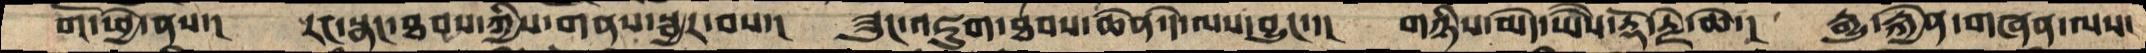གོ་ཕྱེ་ནས་།  རང་སྣང་ཐབས་ཀྱིས་གནས་སྦྱར་བས་།  ཟུང་འཇུག་ཐབས་ཆེན་དེ་ལས་བྱུང་་།  གཉིས་མེད་ཡཻས་རྡོ་རྗེ་ཆེ་།   རྒྱུ་རྐྱེན་གཞན་ལས་
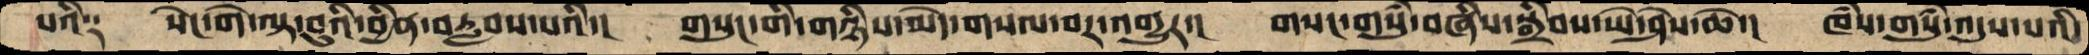པའི༑   སེང་གེ་ལྟ་བུའི་བྱིན་བརླབས་པའི་།  གསུང་གི་གཉིས་མེད་གསལ་བར་འགྱུར་།  གསང་གསུཾ་བཞིས་སྒྲིབས་ཡེ་ཤེས་ཆེ་།  ཁཾས་གསུཾ་འདུས་པའི་
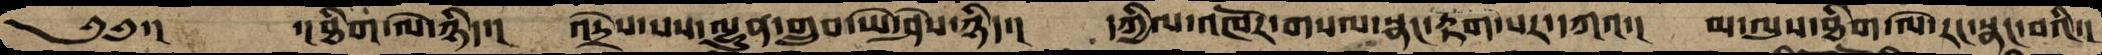༄༅་།    ་།ཐིག་ལེ་ཉིད་།  འདྲེས་པས་ལྷུན་གྲུབ་ཡེ་ཤེས་ཉིད་།  དཀྱིལ་འཁོར་གསལ་སྣང་རྟག་པར་དཀའ་།  མ་ལུས་ཐིག་ལེ་རང་སྣང་བའི་།
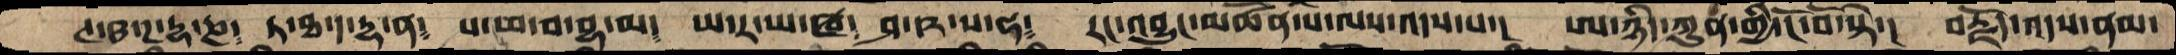ཊ་ཋ་ཌ་དྷ་ཎ༴  ཏ་ཐ་ད་དྷ་ན༴  པ་ཕ་བ་བྷ་མ༴  ཡ་ར་ཡ་ཝ༴  ཤ་ཥ་ས་ཧ༴  རང་འབྱུང་མཚོན་པེ་ལས་འདས་པ་།  ཨ་ཉིད་ཀུན་གྱི་ངོ་བོ་སྟེ་།  བརྗོད་འདས་ནམ་
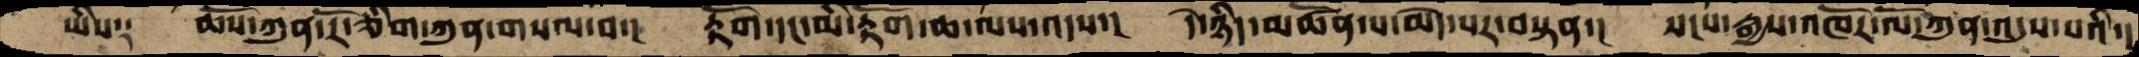ཡིས༑  ཆོས་ཀུན་རོ་ཅིག་ཀུན་གསལ་བ་།  རྟོག་དང་མི་རྟོག་ཆ་ལས་འདས་།  དེ་ཉིད་མཚོན་པ་མེད་པར་བསྟན་།  སངས་རྒྱས་འཁོར་ལོ་ཀུན་འདུས་པའི་།
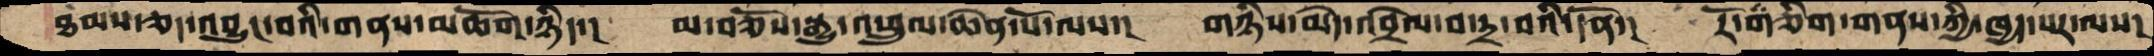ཐམས་ཅད་འབྱུང་བའི་གནས་མཆོག་ཉིད་།  མ་བཅོས་སྒྱུ་འཕྲུལ་ཆེན་པོ་ལས་།  གཉིས་མེད་འབྲེལ་བ་དྲ་བའི་དོན་།  རོ་གཅིག་གནས་ཀྱི་ཁྱད་པར་ལས་།
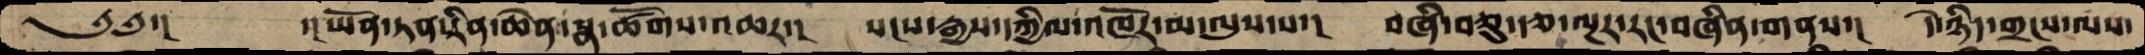༄༅་།      ་།ཡོན་ཏན་རིན་ཆེན་སྣ་ཚོགས་འཆར་།  སངས་རྒྱས་དཀྱིལ་འཁོར་མ་ལུས་པ་།  བཞི་བཅུ་རྩ་ལྔར་རང་བཞིན་གནས་།  དེ་ཉིད་གྲངས་ལས་
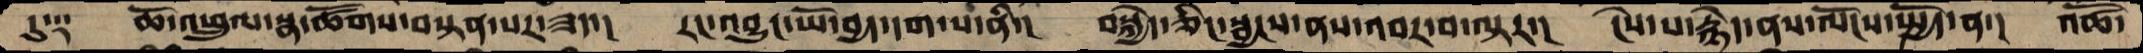དུ༑  ཆོ་འཕྲུལ་སྣ་ཚོགས་བསྟན་པར་ཟད་།  རང་འབྱུང་ཡོ་བྱད་དག་པ་ནི་།  བསྐྱེད་ཅིང་སྦྱངས་ནས་འབར་བ་ལྟར་།  ངེས་པ་རྙེད་ནས་ལོངས་སྤྱོད་ན་།  འཚོ་
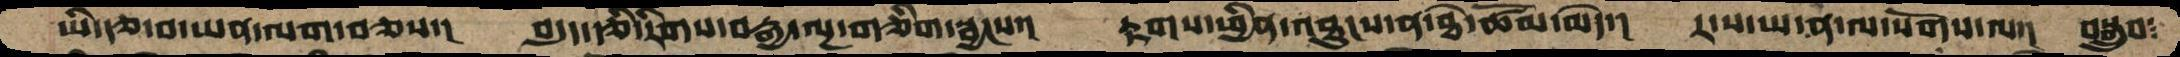ཡིད་རྩ་བ་ཡན་ལག་བཅས་།  བདུད་རྩི་རིགས་བརྒྱ་ལྔ་གཅིག་སྦྱངས་།  རྟགས་ཕྱིན་འཐུངས་ན་ཐེ་ཚོམ་མེད་།  ར་ས་ཡ་ན་ལ་སོགས་ལ་།  བསྒྲུབ་
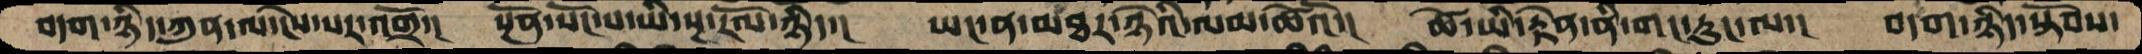བདག་ཉིད་ཀུན་ལ་ངེས་པར་འགྲོ་།  སྔོན་སོང་པ་ཡི་སྔ་རོལ་ཉིད་།  ཡང་ན་མཐར་ཉེའི་ལམ་ཚེའོ་།  ཚེ་ཡི་རྟེན་ནི་གང་རུང་ལ་།  བདག་ཉིད་སྟོབས་
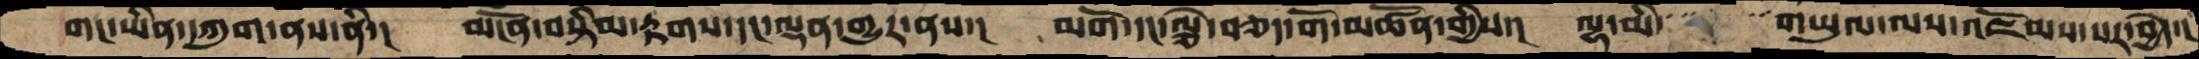གང་ཡིན་དཀུག་ནས་ནི་།  མངོན་བསྟིམ་རྟགས་དང་ལྡན་གྱུར་ནས་།  མགོ་དང་ལྕེ་བཅད་གོ་མཚོན་གྱིས་།  ལྷ་མི་་་་་་གཡུལ་ལས་འཇོམས་པར་བྱེད་།
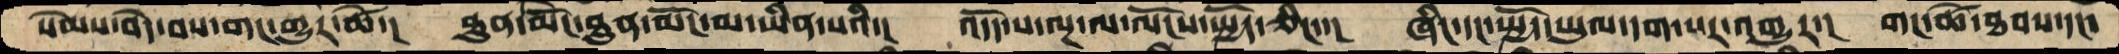སེམས་བདེ་བས་གང་གྱུར་ཚེ་།  ཐུན་མོང་ཐུན་མོང་མ་ཡིན་པའི་།  འདོད་པ་ལྔ་ལ་ལོངས་སྤྱོད་ཅིང་་།  ཞིང་དང་སྤྱོད་ཡུལ་དག་པར་འགྱུར་།  གང་ཚེ་ཐབས་དང་
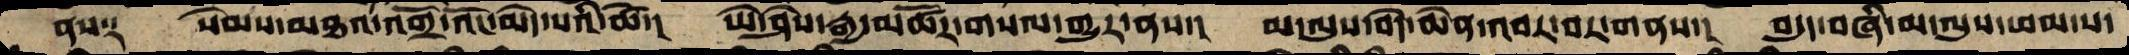ནས༑   སེམས་མཐའ་འགྲོ་འོང་མེད་པའི་ཚེ་།  ཡེ་ཤེས་རྒྱ་མཚོར་གསལ་གྱུར་ནས་།  མ་ལུས་བདེ་ཆེན་འབར་བར་གནས་།  བདུད་བཞི་མ་ལུས་ཕམ་པ་
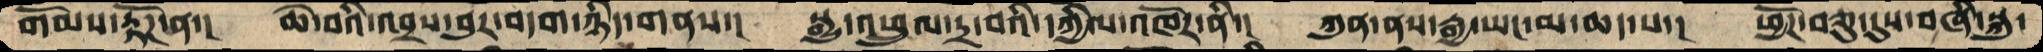གོམས་རྟོཌ་ན་།  ཆེ་བའི་འབྲས་བུར་བདག་ཉིད་གནས་།  སྒྱུ་འཕྲུལ་དྲ་བའི་དཀྱིལ་འཁོར་ནི་།  ཀུན་ནས་རྒྱ་ཡང་མ་ཆད་པ་།  ཕྱོཌ་བཅུ་དུས་བཞི་སྐུ་
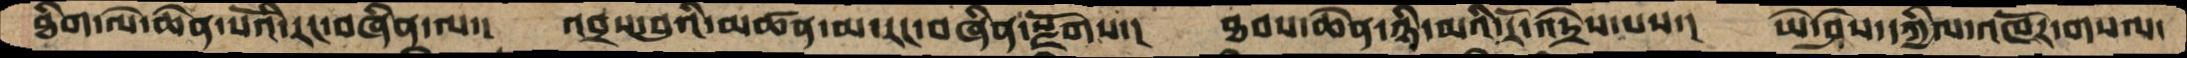ཐིག་ལེ་ཆེན་པོའི་རང་བཞིན་ལ་།  འབྲས་བུའི་མཚན་མ་རང་བཞིན་སྫོགས་།   ཐབས་ཆེན་ཉི་མའི་རོ་འདྲེས་པས་།  ཡེ་ཤེས་དཀྱིལ་འཁོར་གསལ་
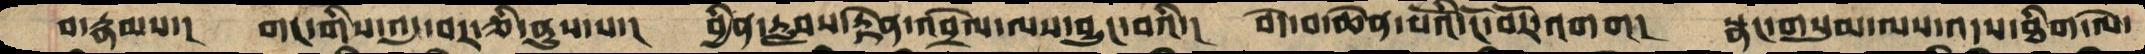བ་རྣམས་།  གང་གིས་འདུ་བར་ཅི་ནུས་པ་།  བྱིན་རླབས་རྟེན་འབྲེལ་ལས་བྱུང་བའི་།  བདེ་བ་ཆེན་པོའི་ངོ་བོར་འགག།  སྣང་གསུམ་ལས་འདས་ཐིག་ལེ་
